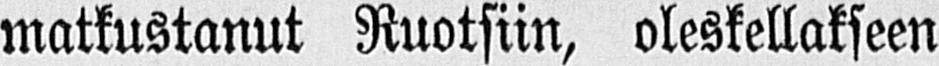matkustanut Ruotsiin, oleskellakseen
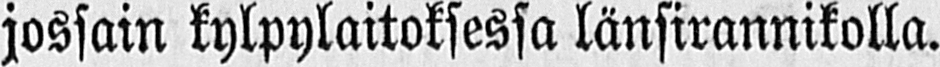jossain kylpylaitoksessa länsirannikolla.
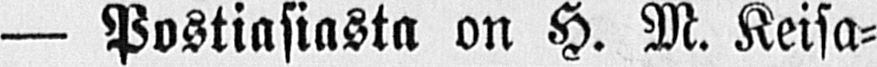— Postiasiasta on H. M. Keisa-
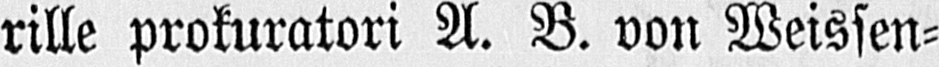rille prokuratori A. B. von Weissen-
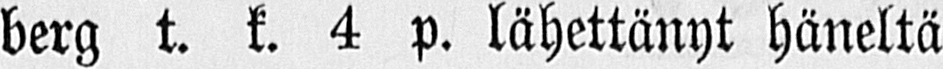berg t. k. 4 p. lähettänyt häneltä
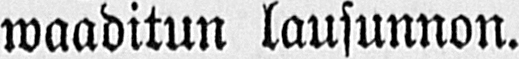waaditun lausunnon.
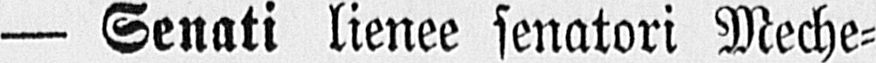— Senati lienee senatori Meche-
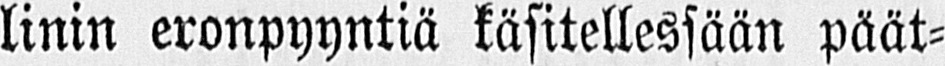linin eronpyyntiä käsitellessään päät-
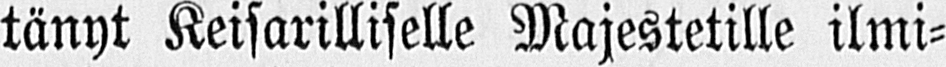tänyt Keisarilliselle Majestetille ilmi-
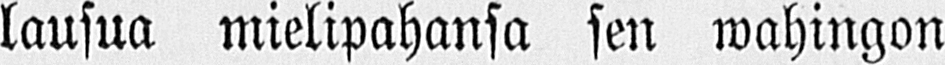lausua mielipahansa sen wahingon
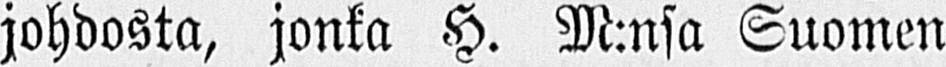johdosta, jonka H. M:nsa Suomen
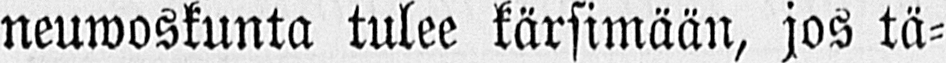neuwoskunta tulee kärsimään, jos tä-
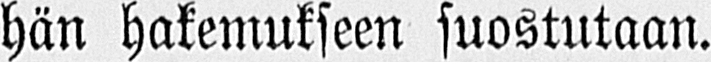hän hakemukseen suostutaan.
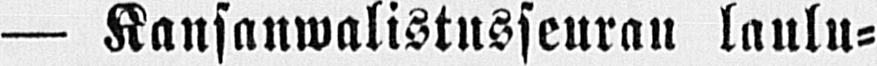— Kansanwalistusseuran laulu-
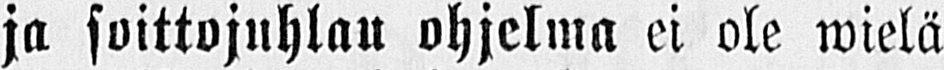ja soittojuhlau ohjelma ei ole wielä
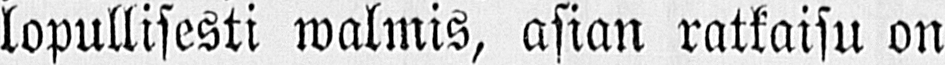lopullisesti walmis, asian ratkaisu on
